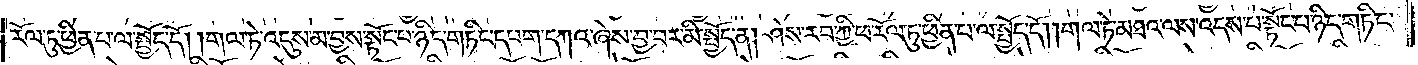རོལ་ཏུ་ཕྱིན་པ་ལ་སྤྱོད་དོ། །གལ་ཏེ་འདུས་མ་བྱས་སྟོང་པ་ཉིད་གཏིང་དཔག་དཀའ་ཞེས་བྱ་བར་མི་སྤྱོད་ན། ཤེས་རབ་ཀྱི་ཕ་རོལ་ཏུ་ཕྱིན་པ་ལ་སྤྱོད་དོ། །གལ་ཏེ་མཐའ་ལས་འདས་པ་སྟོང་པ་ཉིད་གཏིང་
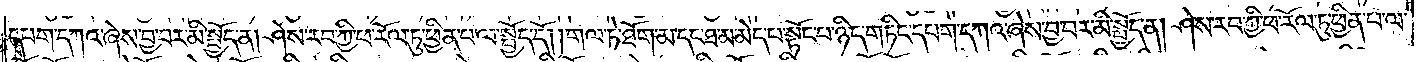དཔག་དཀའ་ཞེས་བྱ་བར་མི་སྤྱོད་ན། ཤེས་རབ་ཀྱི་ཕ་རོལ་ཏུ་ཕྱིན་པ་ལ་སྤྱོད་དོ། །གལ་ཏེ་ཐོག་མ་དང་ཐ་མ་མེད་པ་སྟོང་པ་ཉིད་གཏིང་དཔག་དཀའ་ཞེས་བྱ་བར་མི་སྤྱོད་ན། ཤེས་རབ་ཀྱི་ཕ་རོལ་ཏུ་ཕྱིན་པ་ལ་
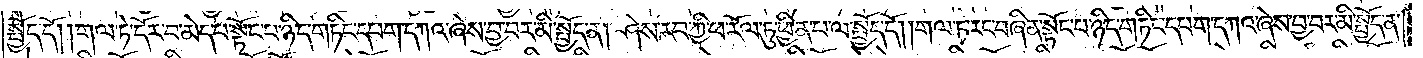སྤྱོད་དོ། །གལ་ཏེ་དོར་བ་མེད་པ་སྟོང་པ་ཉིད་གཏིང་དཔག་དཀའ་ཞེས་བྱ་བར་མི་སྤྱོད་ན། ཤེས་རབ་ཀྱི་ཕ་རོལ་ཏུ་ཕྱིན་པ་ལ་སྤྱོད་དོ། །གལ་ཏེ་རང་བཞིན་སྟོང་པ་ཉིད་གཏིང་དཔག་དཀའ་ཞེས་བྱ་བར་མི་སྤྱོད་ན་
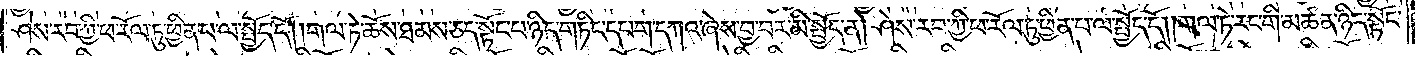ཤེས་རབ་ཀྱི་ཕ་རོལ་ཏུ་ཕྱིན་པ་ལ་སྤྱོད་དོ། །གལ་ཏེ་ཆོས་ཐམས་ཅད་སྟོང་པ་ཉིད་གཏིང་དཔག་དཀའ་ཞེས་བྱ་བར་མི་སྤྱོད་ན། ཤེས་རབ་ཀྱི་ཕ་རོལ་ཏུ་ཕྱིན་པ་ལ་སྤྱོད་དོ། །གལ་ཏེ་རང་གི་མཚན་ཉིད་སྟོང་
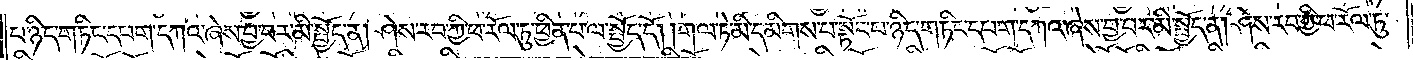པ་ཉིད་གཏིང་དཔག་དཀའ་ཞེས་བྱ་བར་མི་སྤྱོད་ན། ཤེས་རབ་ཀྱི་ཕ་རོལ་ཏུ་ཕྱིན་པ་ལ་སྤྱོད་དོ། །གལ་ཏེ་མི་དམིགས་པ་སྟོང་པ་ཉིད་གཏིང་དཔག་དཀའ་ཞེས་བྱ་བར་མི་སྤྱོད་ན། ཤེས་རབ་ཀྱི་ཕ་རོལ་ཏུ་
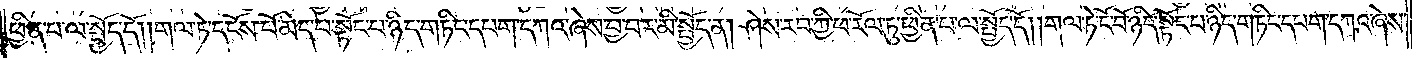ཕྱིན་པ་ལ་སྤྱོད་དོ། །གལ་ཏེ་དངོས་པོ་མེད་པ་སྟོང་པ་ཉིད་གཏིང་དཔག་དཀའ་ཞེས་བྱ་བར་མི་སྤྱོད་ན། ཤེས་རབ་ཀྱི་ཕ་རོལ་ཏུ་ཕྱིན་པ་ལ་སྤྱོད་དོ། །གལ་ཏེ་ངོ་བོ་ཉིད་སྟོང་པ་ཉིད་གཏིང་དཔག་དཀའ་ཞེས་
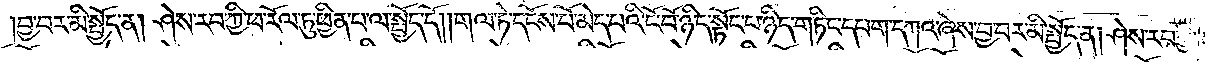བྱ་བར་མི་སྤྱོད་ན། ཤེས་རབ་ཀྱི་ཕ་རོལ་ཏུ་ཕྱིན་པ་ལ་སྤྱོད་དོ། །གལ་ཏེ་དངོས་པོ་མེད་པའི་ངོ་བོ་ཉིད་སྟོང་པ་ཉིད་གཏིང་དཔག་དཀའ་ཞེས་བྱ་བར་མི་སྤྱོད་ན། ཤེས་རབ་ཀྱི་
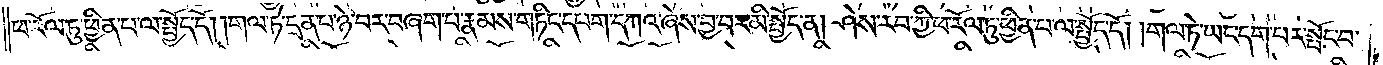ཕ་རོལ་ཏུ་ཕྱིན་པ་ལ་སྤྱོད་དོ། །གལ་ཏེ་དྲན་པ་ཉེ་བར་བཞག་པ་རྣམས་གཏིང་དཔག་དཀའ་ཞེས་བྱ་བར་མི་སྤྱོད་ན། ཤེས་རབ་ཀྱི་ཕ་རོལ་ཏུ་ཕྱིན་པ་ལ་སྤྱོད་དོ། །གལ་ཏེ་ཡང་དག་པར་སྤོང་བ་
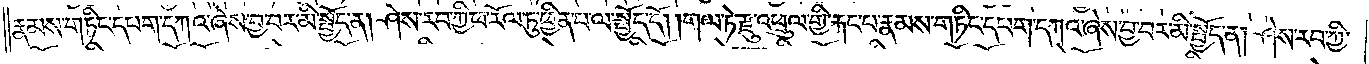རྣམས་གཏིང་དཔག་དཀའ་ཞེས་བྱ་བར་མི་སྤྱོད་ན། ཤེས་རབ་ཀྱི་ཕ་རོལ་ཏུ་ཕྱིན་པ་ལ་སྤྱོད་དོ། །གལ་ཏེ་རྫུ་འཕྲུལ་གྱི་རྐང་པ་རྣམས་གཏིང་དཔག་དཀའ་ཞེས་བྱ་བར་མི་སྤྱོད་ན། ཤེས་རབ་ཀྱི་
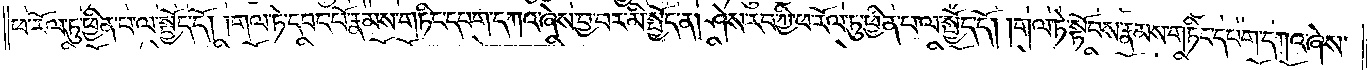ཕ་རོལ་ཏུ་ཕྱིན་པ་ལ་སྤྱོད་དོ། །གལ་ཏེ་དབང་པོ་རྣམས་གཏིང་དཔག་དཀའ་ཞེས་བྱ་བར་མི་སྤྱོད་ན། ཤེས་རབ་ཀྱི་ཕ་རོལ་ཏུ་ཕྱིན་པ་ལ་སྤྱོད་དོ། །གལ་ཏེ་སྟོབས་རྣམས་གཏིང་དཔག་དཀའ་ཞེས་
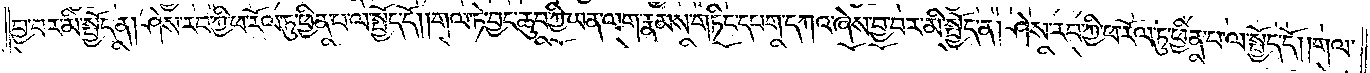བྱ་བར་མི་སྤྱོད་ན། ཤེས་རབ་ཀྱི་ཕ་རོལ་ཏུ་ཕྱིན་པ་ལ་སྤྱོད་དོ། །གལ་ཏེ་བྱང་ཆུབ་ཀྱི་ཡན་ལག་རྣམས་གཏིང་དཔག་དཀའ་ཞེས་བྱ་བར་མི་སྤྱོད་ན། ཤེས་རབ་ཀྱི་ཕ་རོལ་ཏུ་ཕྱིན་པ་ལ་སྤྱོད་དོ། །གལ་
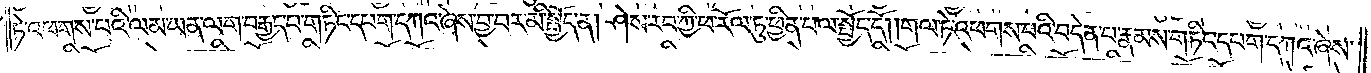ཏེ་འཕགས་པའི་ལམ་ཡན་ལག་བརྒྱད་པ་གཏིང་དཔག་དཀའ་ཞེས་བྱ་བར་མི་སྤྱོད་ན། ཤེས་རབ་ཀྱི་ཕ་རོལ་ཏུ་ཕྱིན་པ་ལ་སྤྱོད་དོ། །གལ་ཏེ་འཕགས་པའི་བདེན་པ་རྣམས་གཏིང་དཔག་དཀའ་ཞེས་
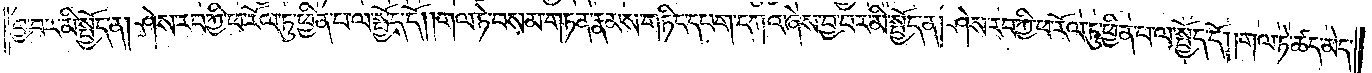བྱ་བར་མི་སྤྱོད་ན། ཤེས་རབ་ཀྱི་ཕ་རོལ་ཏུ་ཕྱིན་པ་ལ་སྤྱོད་དོ། །གལ་ཏེ་བསམ་གཏན་རྣམས་གཏིང་དཔག་དཀའ་ཞེས་བྱ་བར་མི་སྤྱོད་ན། ཤེས་རབ་ཀྱི་ཕ་རོལ་ཏུ་ཕྱིན་པ་ལ་སྤྱོད་དོ། །གལ་ཏེ་ཚད་མེད་
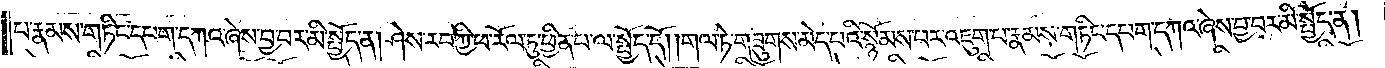པ་རྣམས་གཏིང་དཔག་དཀའ་ཞེས་བྱ་བར་མི་སྤྱོད་ན། ཤེས་རབ་ཀྱི་ཕ་རོལ་ཏུ་ཕྱིན་པ་ལ་སྤྱོད་དོ། །གལ་ཏེ་གཟུགས་མེད་པའི་སྙོམས་པར་འཇུག་པ་རྣམས་གཏིང་དཔག་དཀའ་ཞེས་བྱ་བར་མི་སྤྱོད་ན།
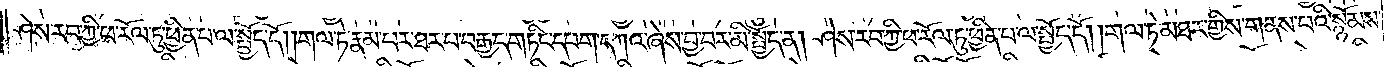ཤེས་རབ་ཀྱི་ཕ་རོལ་ཏུ་ཕྱིན་པ་ལ་སྤྱོད་དོ། །གལ་ཏེ་རྣམ་པར་ཐར་པ་བརྒྱད་གཏིང་དཔག་དཀའ་ཞེས་བྱ་བར་མི་སྤྱོད་ན། ཤེས་རབ་ཀྱི་ཕ་རོལ་ཏུ་ཕྱིན་པ་ལ་སྤྱོད་དོ། །གལ་ཏེ་མཐར་གྱིས་གནས་པའི་སྙོམས་
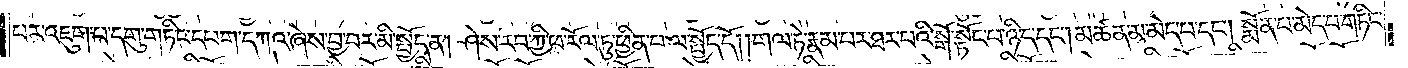པར་འཇུག་པ་དགུ་གཏིང་དཔག་དཀའ་ཞེས་བྱ་བར་མི་སྤྱོད་ན། ཤེས་རབ་ཀྱི་ཕ་རོལ་ཏུ་ཕྱིན་པ་ལ་སྤྱོད་དོ། །གལ་ཏེ་རྣམ་པར་ཐར་པའི་སྒོ་སྟོང་པ་ཉིད་དང༌། མཚན་མ་མེད་པ་དང༌། སྨོན་པ་མེད་པ་གཏིང་
